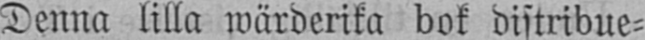Denna lilla wärderika bok distribue-
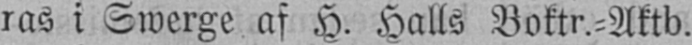ras i Swerge af H. Halls Boktr.-Aktb.
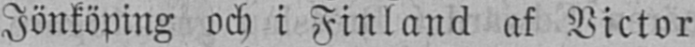Jönköping och i Finland af Victor
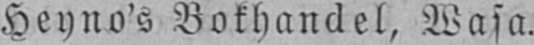Heyno's Bokhandel, Wasa.
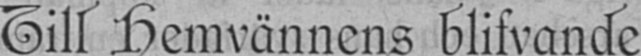Till Hemvännens blifvande
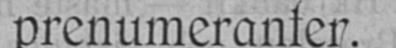prenumeranter.
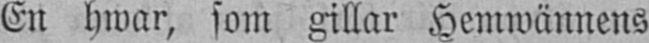En hwar, som gillar Hemwännens
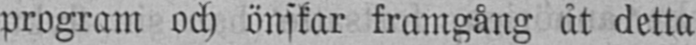program och önskar framgång åt detta
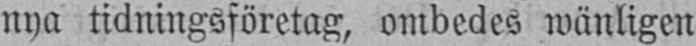nya tidningsföretag, ombedes wänligen
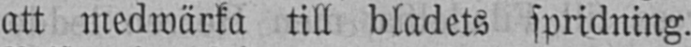att medwärka till bladets spridning.
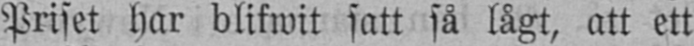Priset har blifwit satt så lågt, att ett
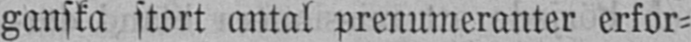ganska stort antal prenumeranter erfor-
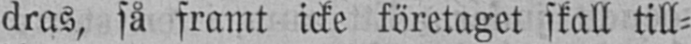dras, så framt icke företaget skall till-
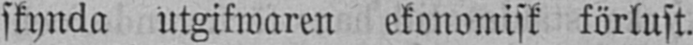skynda utgifwaren ekonomisk förlust.
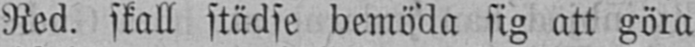Red. skall städse bemöda sig att göra
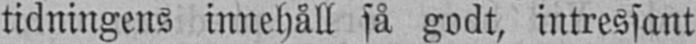tidningens innehåll så godt, intressant
